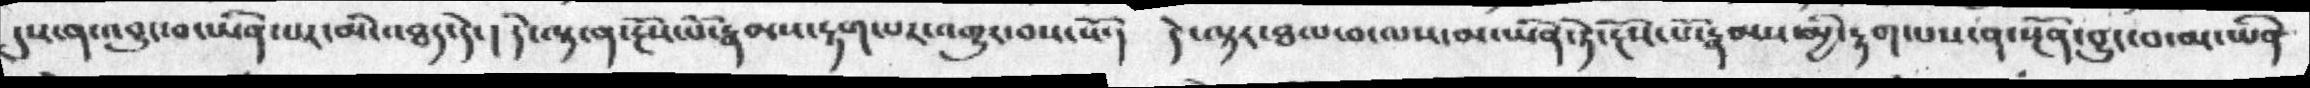དུས་ན་འབྱུང་བ་ཡིན་པར་མི་འཐད་དེ་། དེ་ལྟར་ན་རྔོས་པོ་རྣམས་རྟག་པར་འགྱུར་བས་སོ་།  དེ་ལྟར་ཐལ་བ་ལས་མ་ཡིན་ཏེ་རྔོས་པོ་རྣམས་མྱི་རྟག་པས་ན་རྔོན་བྱུང་བ་མ་ཡིན
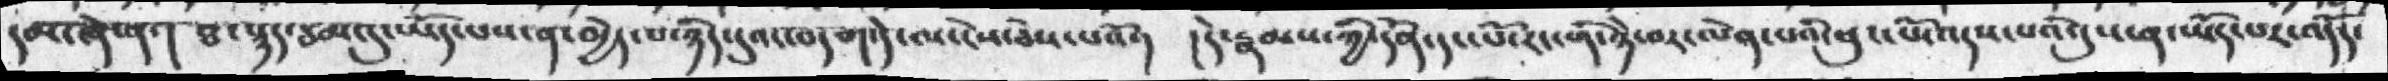དམ་ཞེ་ན་། ཐ་སྙད་ཙམ་དུ་ཡོད་པས་ན་མྱེད་པ་ཉིད་དུའང་བདག་དེ་ལ་ངེས་ཅེས་པའོ་།  །དེ་རྣམས་ཀྱི་དོན་དང་པོ་རང་གི་ཉེ་བར་ལེན་པའི་ཕུང་པོ་འདས་པའི་དུས་ན་ཡོད་པར་འདོད་
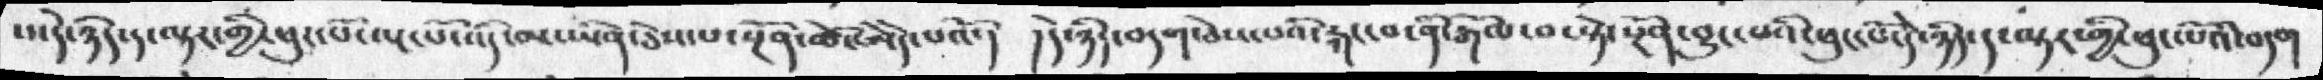པ་དེ་ཉིད་ད་ལྟར་གྱི་ཕུང་པོ་ལྔ་པོ་འདི་མ་ཡིན་ཅེས་པ་སྔོན་ཚེ་ཨེདེ་པའོ་། །དེ་ཉིད་བདག་ཅེས་པའི་རྐང་བ་ནི་རྒོལ་བ་སྟེ་སྔོན་བྱུང་བའི་ཕུང་པོ་དེ་ཉིད་ད་ལྟར་གྱི་ཕུང་པོའི་བདག
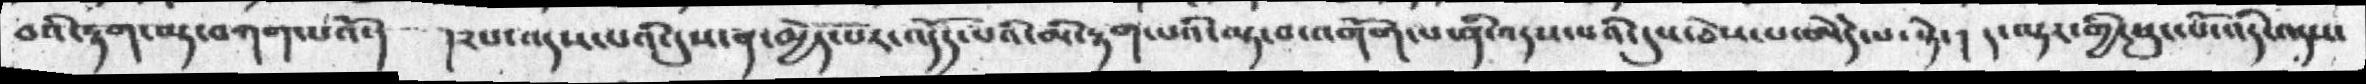བའི་རྟག་ལྟ་བཀག་པའོ་།  །༢པ་འདས་པའི་དུས་ན་མྱེད་པར་འདོད་པའི་མི་རྟག་པའི་ལྟ་བ་འགོག་པ་ནི་འདས་པའི་དུས་ཅེས་པ་ཨེདེ་པ་སྟེ་། ད་ལྟར་གྱི་ཕུང་པོ་འདི་འདས་
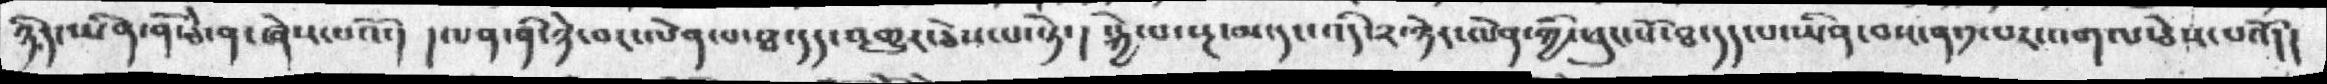ཉིད་ཡིན་ནོ་ཅེ་ན་ཞེས་པའོ་། །ལན་ནི་ཉེ་བར་ལེན་པ་ཐ་དད་འགྱུར་ཅེས་པ་སྟེ་། སྐྱེ་པ་སྔ་མ་དང་འདི་༢་ཉེར་ལེན་ཀྱི་ཕུང་པོ་ཐ་དད་པ་ཡིན་བས་ན་༡་པར་འགལ་ཅེས་པའོ།།
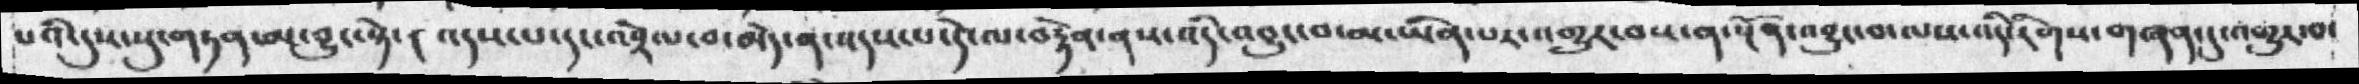པའི་དུས་སུ་གཏན་མ་བྱུང་སྟེ་། འདས་པ་དང་འབྲེལ་བ་མེད་ན་འདས་པ་དེ་ལ་བརྟེན་ནས་འདི་འབྱུང་བ་མ་ཡིན་པར་འགྱུར་བས་ན་སྔོན་འབྱུང་བ་ལས་འདི་རིགས་གཞན་དུ་འགྱུར་བ་
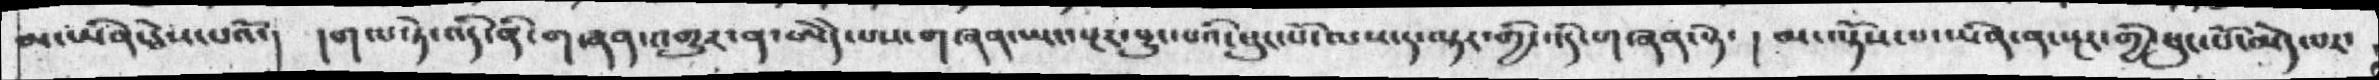མ་ཡིན་ཅེས་པའོ་།  །གལ་ཏེ་འདི་ནི་གཞན་འགྱུར་ན་ཨེདེ་པས་གཞན་ཡང་སྔར་བྱུང་པའི་ཕུང་པོ་ལས་ད་ལྟར་གྱི་འདི་གཞན་སྟེ་། མ་ལྟོས་པ་ཡིན་ན་སྔར་གྱི་ཕུང་པོ་མེད་པར་
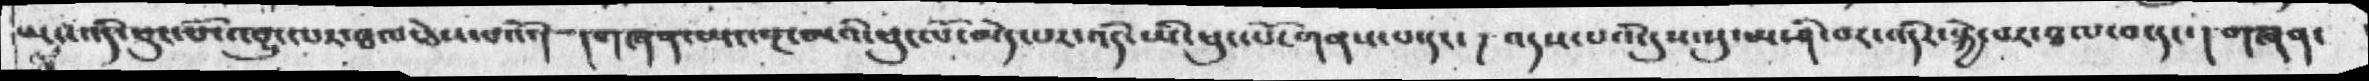ཡང་འདི་ཕུང་པོ་འབྱུང་པར་ཐལ་ཅེས་པའོ་།  །གཞན་ཡང་སྔ་མའི་ཕུང་པོ་མེད་པར་འདི་ཡི་ཕུང་པོ་གནས་པ་དང་། འདས་པའི་དུས་སུ་མ་ཤི་བར་འདིར་སྐྱེ་བར་ཐལ་བ་དང་། གཞན་
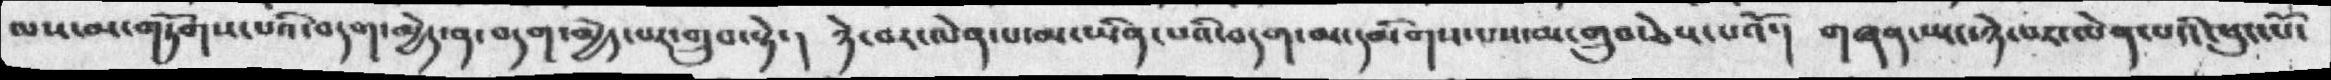ལས་མ་གཏོགས་པའི་བདག་མྱེད་ན་བདག་མྱེད་པར་གྲུབ་སྟེ་། ཉེ་བར་ལེན་པ་མ་ཡིན་པའི་བདག་མ་དམིགས་པས་མ་གྲུབ་ཅེས་པའོ་། གཞན་ཡང་ཉེ་བར་ལེན་པའི་ཕུང་པོ་
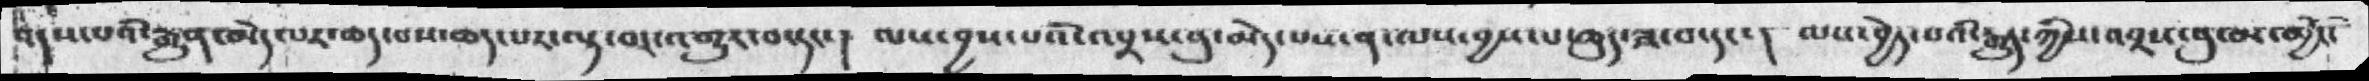འདས་པའི་རྒྱུན་མེད་པར་ཆད་པས་ཆད་པར་ལྟ་བར་འགྱུར་བ་དང་། ལས་བྱས་པའི་འབྲས་བུ་མེད་པས་ན་ལས་བྱས་པ་ཆུད་ཟ་བ་དང་། ལས་བྱེད་པའི་རྒྱུད་ཀྱིས་འབྲས་བུ་མ་མྱོང་
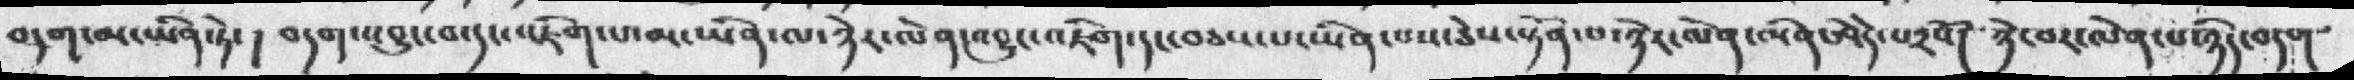བདག་མ་ཡིན་ཏེ་། བདག་འབྱུང་བ་དང་འཇིག་པ་མ་ཡིན་ལ་ཉེར་ལེན་འབྱུང་འཇིག་དང་བཅས་པ་ཡིན་པས་ཅེས་སྟོན་པ་ཉེར་ལེན་ཨེདེ་པ༢སོ་། ཉེ་བར་ལེན་པ་ཉིད་བདག
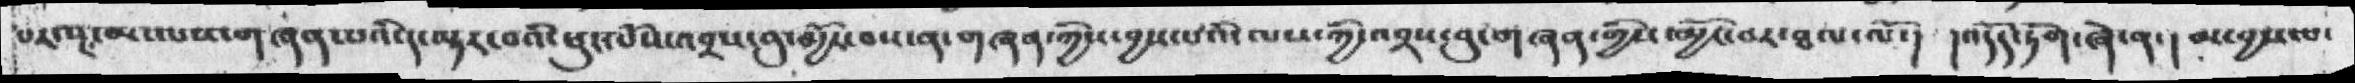པར་སྔ་མ་ལས་གཞན་པའི་ད་ལྟར་བའི་ཕུང་པོས་འབྲས་བུ་མྱོང་བས་ན་གཞན་ཀྱིས་བྱས་པའི་ལས་ཀྱི་འབྲས་བུ་གཞན་གྱིས་མྱོང་བར་ཐལ་ལོ་། །འདོད་ཏོག་ཞེ་ན་། མ་བྱས་པ་
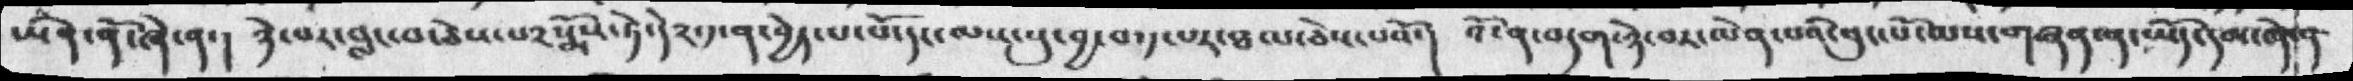ཡིན་ནོ་ཞེ་ན་། ཉེ་བར་བླང་བ་ཅེས་པ༢སྨོས་ཏེ་དེ༢་༡་ན་བྱེད་པ་པོ་དང་ལས་སུ་བྱ་བ་༡་པར་ཐལ་ཅེས་པའོ་། འོ་ན་བདག་ཉེ་བར་ལེན་པའི་ཕུང་པོ་ལས་གཞན་ན་ཡོད་དམ་ཞེ་ན
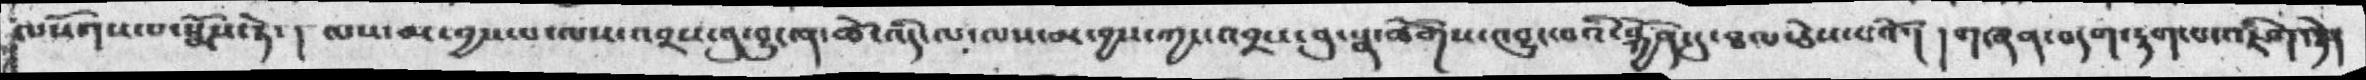ལསོགས་པ་སྨོས་ཏེ་། ལས་མ་བྱས་པ་ལས་འབྲས་བུ་བྱུང་ན་ཚེ་འདི་ལ་ལས་མ་བྱས་ཀྱང་འབྲས་བུ་སྣ་ཚོགས་འབྱུང་བའི་སྐྱོན་དུ་ཐལ་ཅེས་པའོ་། གཞན་བདག་རྟག་པ་འཇིག་ཏེ།
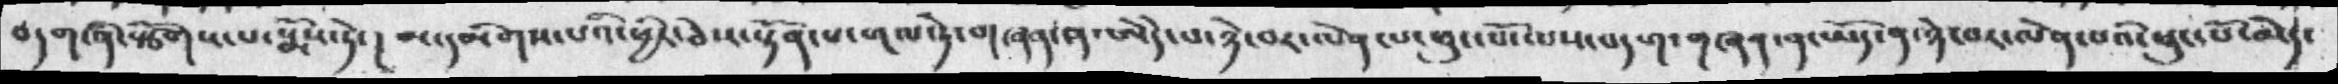བདག་ནི་སྩོགས་པ་སྨོས་ཏེ་། མ་དམིགས་པའི་ཕྱིར་ཅེས་སྟོན་པ་གལ་ཏེ་གཞན་ཨེདེ་པ་ཉེ་བར་ལེན་པ་ཕུང་པོ་ལས་བདག་གཞན་ན་ཡོད་ན་ཉེ་བར་ལེན་པའི་ཕུང་པོ་མེད་
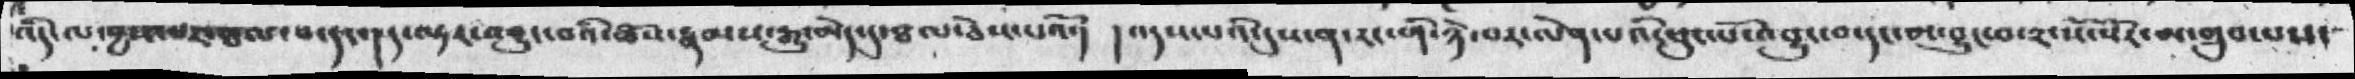འདི་ལ་བྱས་པར་ཐལ་བ་དང་།ད་ལྟར་འབྱུང་བའི་ཆོས་རྣམས་རྒྱུ་མེད་དུ་ཐལ་ཅེས་པའོ་། །འདས་པའི་དུས་ན་རང་གི་ཉེ་བར་ལེན་པའི་འབྱུང་བ་དང་མ་བྱུང་བ་༢་སོ་སོར་མ་གྲུབ་པས་
